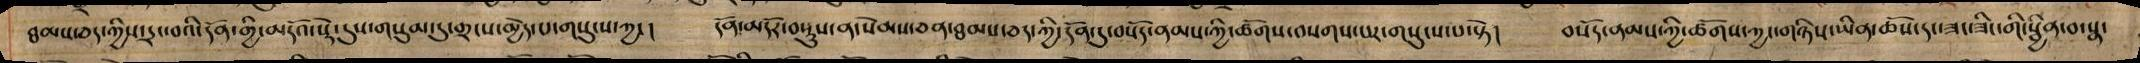ཐམས་ཅད་ཀྱིས་དྲང་བའི་དོན་གྱི་མདོའ་སྡེ་དུས་གསུམ་དུ་གྲངས་མྱེད་པ་གསུངས་ཀྱང། དོན་མདོར་བསྡུས་ན་སེམས་ཅན་ཐམས་ཅད་ཀྱི་དོན་དུ་བསོད་ནམས་ཀྱི་ཚོགས་བསགས་པར་གསུངས་པ་སྟེ། བསོད་ནམས་ཀྱི་ཚོགས་ཀྱང་གཉིས་ཡིན་ཆོས་དང་ཟང་ཟིང་གི་སྦྱིན་བ་སྣ་
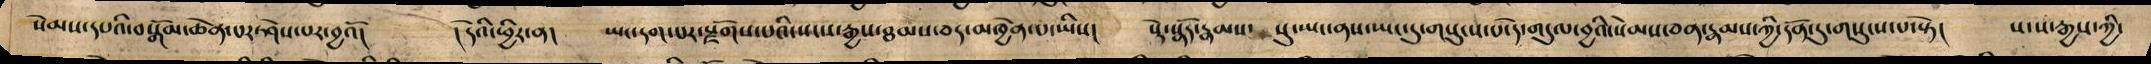སེམས་དཔའི་བསྒོམ་ཆེན་པར་ཤེས་པར་བྱའོ། ། དེའི་ཕཨཡིར་ན། ཡང་གད་པར་སྫོགས་པའི་སངས་རྒྱས་ཐམས་ཅད་མཁྱེན་པ་ཡིས། སྡེ་སྣོད་རྣམས་ སུ་ཡང་ནས་ཡང་དུ་གསུངས་པ་དེ་གདུལ་བྱའི་སེམས་ཅན་རྣམས་ཀྱི་དོན་དུ་གསུངས་པ་སྟེ། སངས་རྒྱས་ཀྱི་
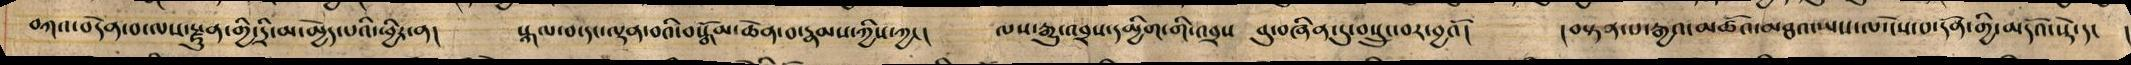བཀའ་བདེན་བ་ལས་སྫུན་གྱི་དྲི་མ་མྱེད་པའི་ཕྱིར་ན། སྐལ་བ་དང་ལྡན་བའི་སྒོམ་ཆེན་བ་རྣམས་ཀྱིས་ཀྱང། ལས་རྒྱུ་འབྲས་དམྱིག་གི་འབྲས བུ་བཞིན་དུ་བསྲུང་བར་བྱའོ། །བསྟན་པ་རྒྱའ་མཚོའ་མཐའ་ཡས་ལ་ངེས་པ་དོན་གྱི་མདོའ་སྡེ་དང །
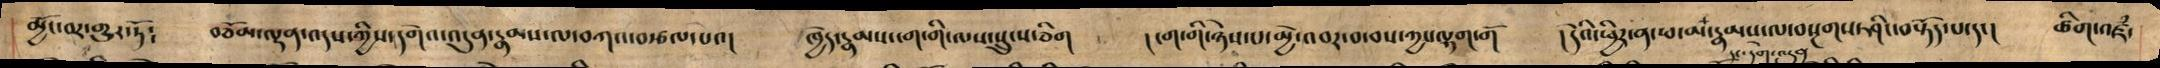མྱོང་བར་གྱུར་ཏོ༴  བཅོམ་ལྡན་འདས་ཀྱིས་དགེའ་འདུན་རྣམས་པ་ལ་བཀའ་བརྩལ་པའ།   ཁྱེད་རྣམས་ངག་གི་ལས་སྲུངས་ཅིག   ། ངག་གི་ཉེས་པ་མྱེ་འབར་བ་བས་ཀྱང་ལྷག་གོ   ། དེའི་ཕྱིར་ན་ཕ་མ་དང་དགེ་འདུན་རྣམས་ལ་བསྔགས་ཤིང་བསྟོད་པ་དང་།   ཚིག་འཇཾ་
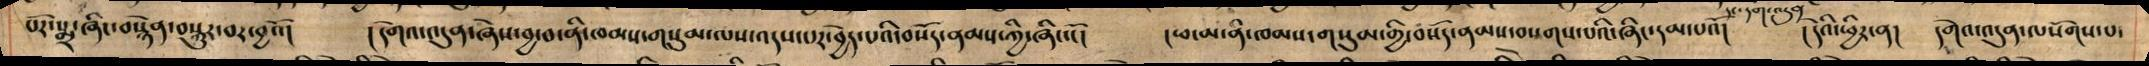པོར་སྨྲ་ཞིང་བསྙེན་བསྐུར་བར་བྱའོ།   ། དགེའ་འདུན་ཞེས་བྱ་བ་ནི་ཁམས་གསུམ་ལས་འདས་པར་བྱེད་པའི་བསོད་ནམས་ཀྱི་ཞིང་ངོ།   ། ཕ་མ་ནི་ཁམས་གསུམ་གྱི་བསོད་ནམས་བསགས་པའི་ཞིང་དམ་པའོ།   ། དེའི་ཕྱིར་ན་དགེ་འདུན་ལསོགས་པ་
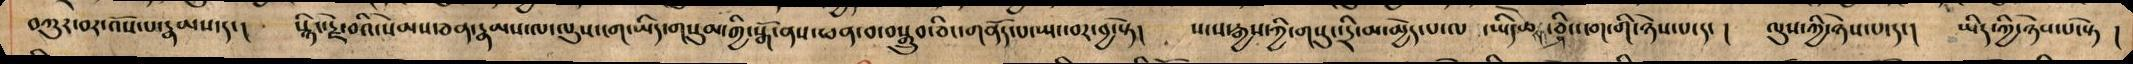བཀུར་བར་འོས་པ་རྣམས་དང་།   སྙིང་རྗེ་བའི་སེམས་ཅན་རྣམས་ལ་ལུས་ངག་ཡིད་གསུམ་གྱི་སྒོ་ནས་ཕན་བ་བསྒྲུབ་ཅིང་གནོད་པ་སྤང་བར་བྱ་སྟེ།   སངས་རྒྱས་ཀྱི་གསུངས་དྲི་མ་མྱེད་པ་ལ་  ཡིད་ཆེས་ཤིང་ངག་གི་ཉེས་པ་དང།   ལུས་ཀྱི་ཉེས་པ་དང།   ཡིད་ཀྱི་ཉེས་པ་སྟེ  །
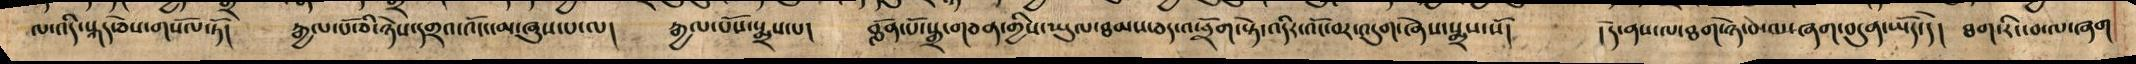ལ་འདི་སྐད་ཅེས་གསོལ་ཏོ། རྒྱལ་པོ་ཅི་ཉེས་དགྲའ་འོང་ངམ་ཞུས་པ་ལ། རྒྱལ་པོས་སྨྲས་པ། བློན་པོ་སྒྲ་གཅན་གྱིས་ཡུལ་ཐམས་ཅད་འཕྲོག་སྟེ་འདིར་འོང་བར་འདུག་ཞེས་སྨྲས་སོ། །དེ་ནས་ལ་ཐག་ཉེ་བ་ལ་ཞག་བདུན་ཡོད་དེ། ཐག་རིང་བ་ལ་ཞག
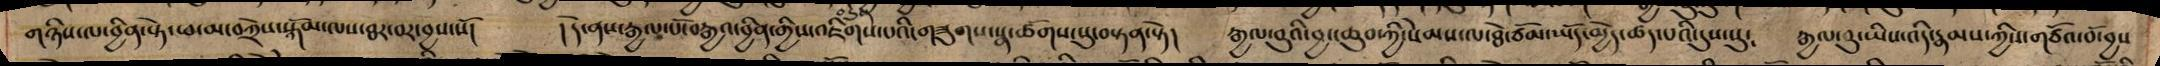གཉིས་ལ་བྱིན་སྟེ་ཕ་མ་བཀྲེས་སྐོམ་ལས་ཐར་བར་བྱས་སོ།  ། དེ་ནས་རྒྱལ་པོ་བརྒྱའ་བྱིན་གྱིས་འཇིགས་པའི་གཟུགས་སྣ་ཚོགས་སུ་བསྟན་སྟེ།   རྒྱལ་བའི་བྱང་ཆུབ་ཀྱི་སེམས་ལ་ཐེ་ཚོམ་ཡོད་མྱེད་ཚད་པའི་དུས་སུ༴  རྒྱལ་བུ་ཡིས་འདི་རྣམས་ཀྱིས་གཙོའ་བོ་བྱས
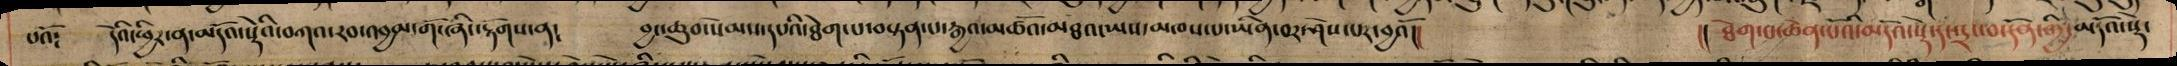པའོ༴ དེའི་ཕྱིར་ན་མདོའ་སྡེའི་བཀའ་རབ་འབྱམ་གོ་ཞིང་རྟོགས་ན༴ བྱང་ཆུབ་སེམས་དཔའི་ཐེག་པ་བསྟན་པ་རྒྱའ་མཚོའ་མཐའ་ཡས་མཁས་པ་ཡིན་བར་ཤེས་པར་བྱའོ།། །། ཐེག་པ་ཆེན་པོའི་མདོའ་སྡེ་དང་དྲང་བ་དོན་གྱི་མདོའ་སྡེ་
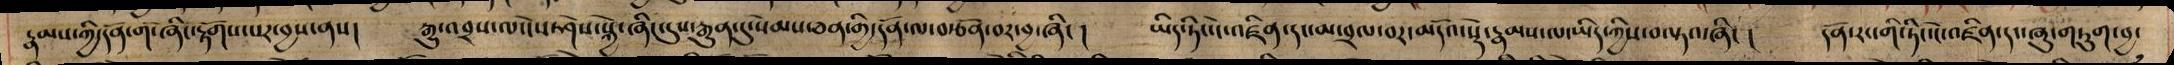རྣམས་ཀྱི་དོན་གོ་ཞིང་རྟོགས་པར་བྱས་ནས། རྒྱུ་འབྲས་ལ་ངེས་ཤེས་སྐྱེ་ཞིང་དུས་རྒྱུན་དུ་སེམས་ཅན་གྱི་དོན་ལ་བརྩོན་བར་བྱ་ཞིང། ཡིད་ཏེང་ངེ་འཛིན་དང་མ་བྲལ་བར་མདོའ་སྡེ་རྣམས་ལ་ཡིད་ཀྱིས་བལྟའ་ཞིང། དོན་རང་གི་ཏིང་ངེ་འཛིན་དང་ཞུ་གཏུག་བྱ་
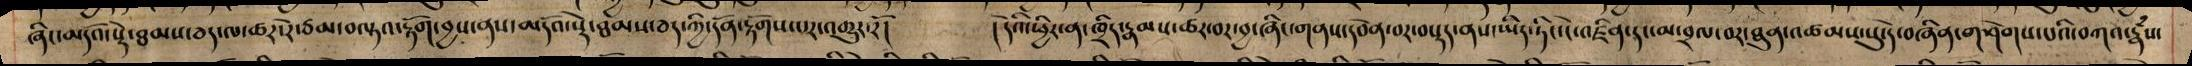ཞིང་མདོའ་སྡེ་ཐམས་ཅད་ལ་ཚར་རེ་ཙམ་བལྟའ་རྟོག་བྱས་ནས་མདོའ་སྡེ་ཐམས་ཅད་ཀྱི་དོན་རྟོགས་པར་འགྱུར་རོ། །དེའི་ཕྱིར་ན་ཁྲིད་རྣམས་ཚར་བར་བྱ་ཞིང་གནས་དབེན་བར་བསྡད་ནས་ཡིད་ཏིང་ངེ་འཛིན་དང་མ་བྲལ་བར་ཐུན་འཚམས་སུ་དེ་བཞིན་གཤེགས་པའི་བཀའ་རྣཾས་
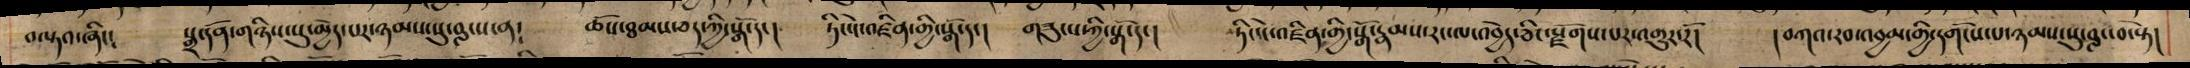བལྟའ་ཞིང། སྒྲ་དོན་གཉིས་སུ་མྱེད་པར་ཉམས་སུ་བླངས་ན༴ ཆོས་ཐམས་ཅད་ཀྱི་སྒོ་དང། ཏིང་ངེ་འཛིན་གྱི་སྒོ་དང། ཏངི་ངེ་འཛིན་གྱི་སྒོ་རྣམས་རང་ལ་འབྱེད་ཅིང་སྫོགས་པར་གྱུར་རོ། །བཀའ་རབ་འབྱམ་གྱི་དགོངས་པ་ཉམས་སུ་བླང་བ་སྟེ།
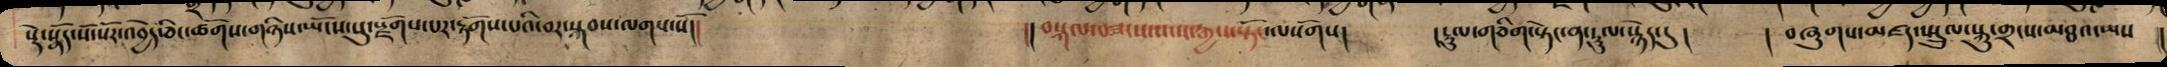སྡེ་སྣོད་སོ་སོར་འབྱེད་ཅིང་ཚོགས་གཉིས་ཡོངས་སུ་སྫོགས་པར་རྟོགས་པའི་སྐབས་ལགས་སོ།། །།བསྐལ་བཟང་སངསང་རྒྱས་སྟོང་ལསོགས། །རྡུལ་གཅིག་སྟེང་ན་རྡུལ་སྙེད་དུ། ། བཞུགས་མཛད་སྤྲུལ་སྐུ་གྲངས་མཐའ་ཡས །།
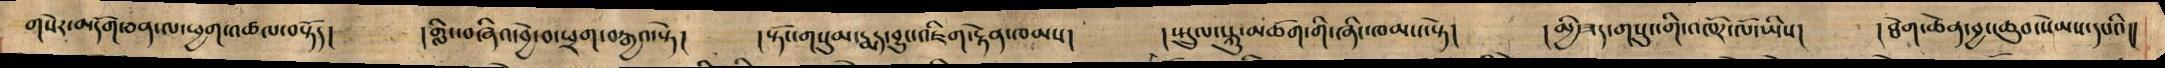གསེར་མདོག་ཅན་ལ་ཕྱག་འཚལ་བསྟོད། །གླིང་བཞིའ་བྱེ་བ་ཕྲག་བརྒྱའ་སྟེ། །སྟོང་གསུམ་རྨད་དུ་བྱུང་འཇིག་རྟེན་ཁམས། །སྤྲུལ་སྐུ་མཆོག་གི་ཞཱིང་ཁམས་སྟེ། །མྱི་ཟད་གསུང་གི་འཁོར་ལོ་ཡིས། །ཐེག་ཆེན་བྱང་ཆུབ་སེམས་དཔའི།།
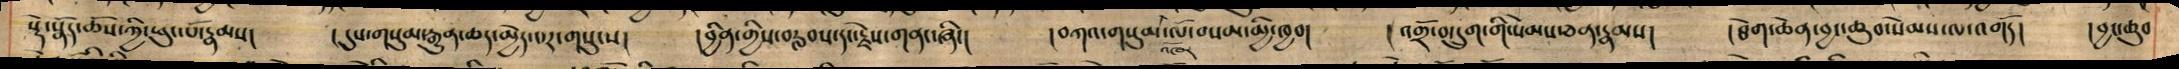སྡེ་སྣོད་ཆོས་ཀྱི་ཕུང་པོ་རྣམས།  ། དུས་གསུམ་རྒྱུན་ཆད་མྱེད་པར་གསུངས།  །བྱིན་གྱིས་བརླབས་དང་རྗེས་གནང་ཞིང་།   ། བཀའ་གསུམ་འཁོར་ལོ་བསམ་མི་ཁྱབ།   ། འགྲོ་བ་དྲུག་གི་སེམས་ཅན་རྣམས།   ། ཐེག་ཆེན་བྱང་ཆུབ་སེམས་ལ་འགོད།   ། བྱང་ཆུབ
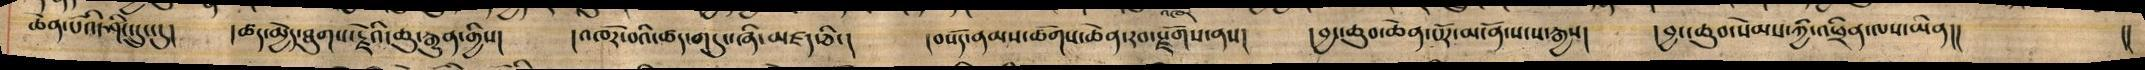ཆེན་པོའི་ཤིང་དྲུང་དུ།    །ཚད་མྱེད་ཐུགས་རྗེའི་ཆུ་རྒྱུན་གྱིས།  །འཁོར་བའི་ཚད་གདུང་ཞིང་མཛད་ཅིང།   །བསོད་ནམས་ཚོགས་ཆེན་རབ་རྫོགས་ནས།   །བྱང་ཆུབ་ཆེན་པོར་མངོན་སངས་རྒྱས།   །བྱང་ཆུབ་སེམས་ཀྱི་འཕྲིན་ལས་ཡིན།།
